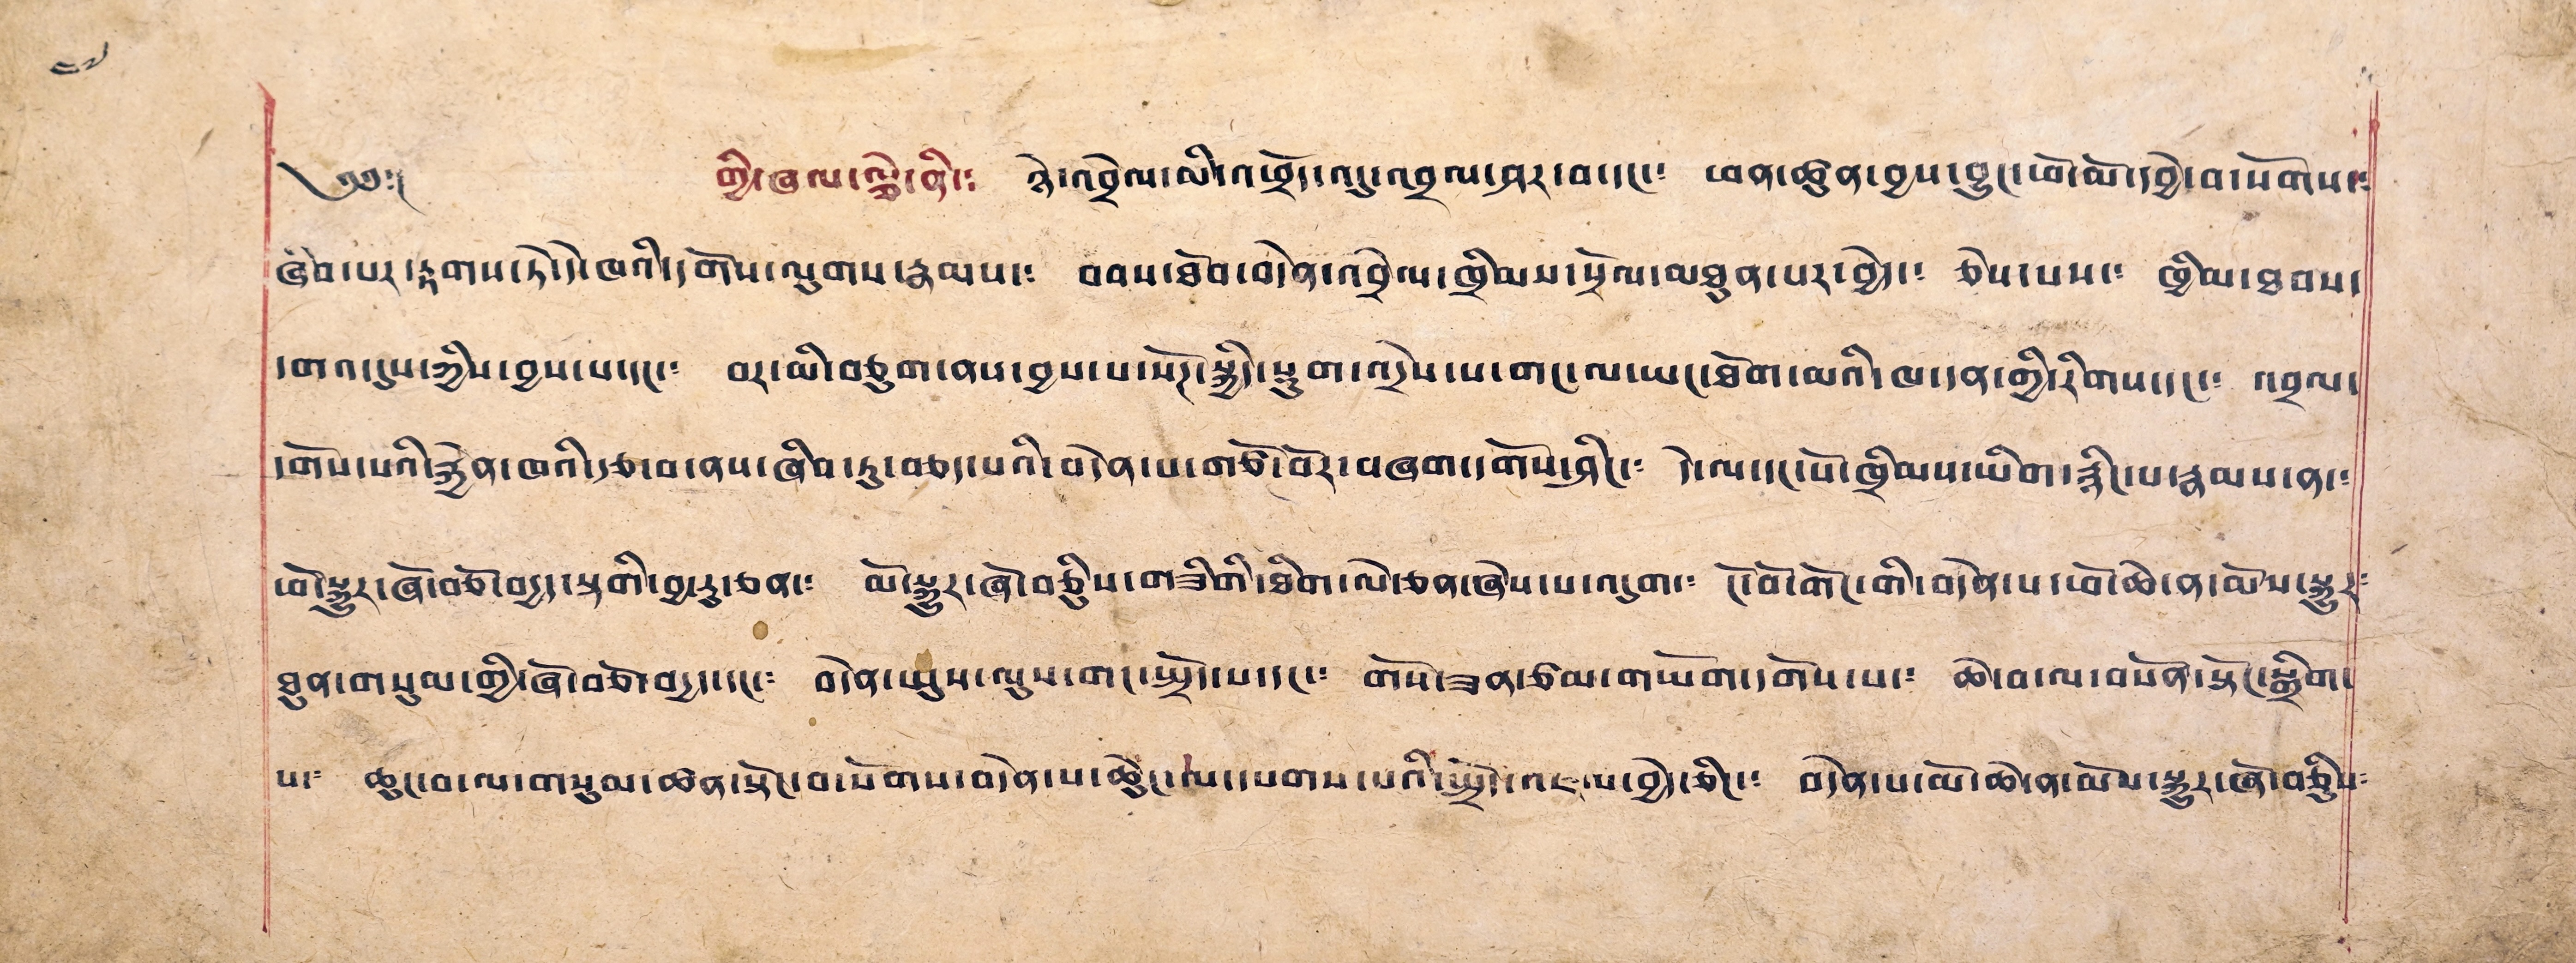༄༅།། གྱི་ཞལ་ལྕེ་ནི་༴ ཉེ་འབྲེལ་མི་འཕྲོད་འདུ་འབྲལ་ཤར་བ་དང་༴ ཕན་ཚན་བྱས་བྱུང་ཕོ་མོ་དབྱེ་བ་སོགས༴
ཞིབ་པར་རྟགས་ཏེ་དེ་ཁའི་དགོས་ལུགས་རྣམས་༴ བབས་ཐོབ་བདེན་འབྲེལ་ཁྲིམས་སྲོལ་མཐུན་པར་བྱེད་༴ ཅེས་པས་༴ ཁྱིམ་ཐབས་
དགའ་དུས་ཀྱིས་བྱས་པ་དང་༴ བར་མི་བཅུག་ནས་བྱས་པ་སོཊ་སྐྱིད་སྡུག་འདྲེས་པ་གང་ལ་ཡང་ཐོག་མའི་ཁ་དན་གྱི་རིགས་དང་༴ འབྲལ་
དགོས་པའི་རྐྱེན་ཁའི་རྩ་བ་ནས་ཞིབ་ཏུ་བཅད་པའི་བདེན་པ་གཙོ་བོར་བཞག་དགོས་ཤིང་༴ དེ་ལ་དང་པོ་ཁྲིམས་ཡིག་རྙིང་པ་རྣམས་ན་༴
ཕོ་སྒྱུར་ཞོ་བཅོ་བདྱད་སྟགི་བྱ་རུ་ཅན་༴ མོ་སྒྱུར་ཞོ་བཅིུས་གཟིགི་ཐིག་ལེ་ཅན་ཞེས་པ་འདུག་༴ ངོ་བོ་གོང་གི་བདེན་པ་ཕོ་ཆེ་ན་མོས་སྒྱུར༴
ཐུན་གསུམ་གྱི་ཞོ་བཅོ་བདྱད་དང་༴ བདེན་ཡུས་ལུས་གང་སྤྲོད་པ་དང་༴ གོས་ཟན་ཙམ་གཡོག་དགོས་པ་༴ ཆེ་བ་ལ་བསོན་སྟོང་སྒྲིག་
པ་༴ ཆུང་བ་ལ་གསུམ་ཚན་སྟོང་བ་སོགས་བདེན་པ་ཆེ་ཆུང་ལ་དཔགས་པའི་སྤྲོད་འཇལ་བྱེད་ཅིང་༴ བདེན་པ་མོ་ཆེ་ན་མོས་སྐྱུར་ཞོ་བཅིུས༴
